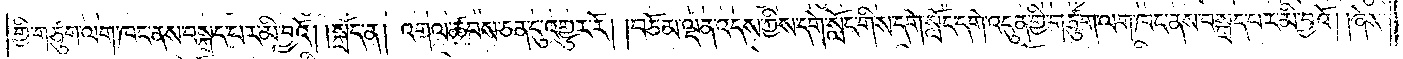གྱི་གཙུག་ལག་ཁང་ནས་བསྐྲད་པར་མི་བྱའོ། །སྐྲོད་ན། འགལ་ཚབས་ཅན་དུ་འགྱུར་རོ། །བཅོམ་ལྡན་འདས་ཀྱིས་དགེ་སློང་གིས་དགེ་སློང་དགེ་འདུན་གྱི་གཙུག་ལག་ཁང་ནས་བསྐྲད་པར་མི་བྱའོ། །ཞེས་
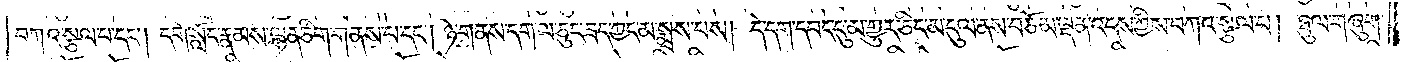བཀའ་སྩལ་པ་དང༌། དགེ་སློང་རྣམས་ལྷན་ཅིག་གནས་པ་དང༌། ཉེ་གནས་དག་ལ་ཅུང་ཟད་ཀྱང་མ་སྨྲས་པས། དེ་དག་དབང་དུ་མ་གྱུར་ཅིང་མ་དུལ་ནས་བཅོམ་ལྡན་འདས་ཀྱིས་བཀའ་སྩལ་པ། ཉུལ་གཞུག་
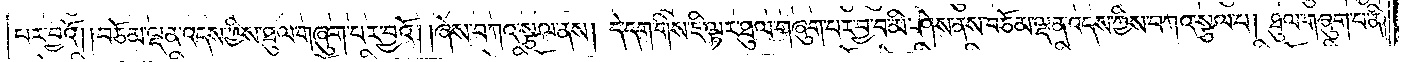པར་བྱའོ། །བཅོམ་ལྡན་འདས་ཀྱིས་ཐུལ་གཞུག་པར་བྱའོ། །ཞེས་བཀའ་སྩལ་ནས། དེ་དག་གིས་ཇི་ལྟར་ཐུལ་གཞུག་པར་བྱ་བ་མི་ཤེས་ནས་བཅོམ་ལྡན་འདས་ཀྱིས་བཀའ་སྩལ་པ། ཐུལ་གཞུག་པ་ནི།
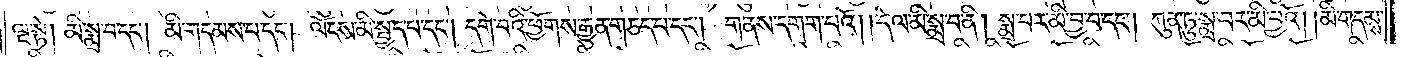ལྔ་སྟེ། མི་སྨྲ་བ་དང༌། མི་གདམས་པ་དང༌། ལོངས་མི་སྤྱད་པ་དང༌། དགེ་བའི་ཕྱོགས་རྒྱུན་གཅད་པ་དང༌། གནས་དགག་པའོ། །དེ་ལ་མི་སྨྲ་བ་ནི། སྨྲ་པར་མི་བྱ་བ་དང༌། ཀུན་ཏུ་སྨྲ་བར་མི་བྱའོ། །མི་གདམས་
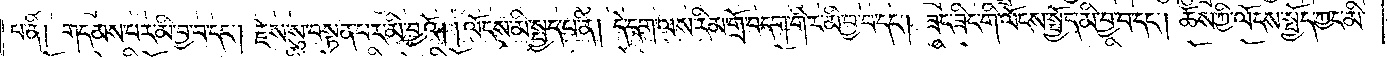པ་ནི། གདམས་པར་མི་བྱ་བ་དང༌། རྗེས་སུ་བསྟན་པར་མི་བྱའོ། །ལོངས་མི་སྤྱད་པ་ནི། དེ་དག་ལས་རིམ་གྲོ་བདག་གིར་མི་བྱ་བ་དང༌། ཟང་ཟིང་གི་ལོངས་སྤྱོད་མི་བྱ་བ་དང༌། ཆོས་ཀྱི་ལོངས་སྤྱོད་ཀྱང་མི་
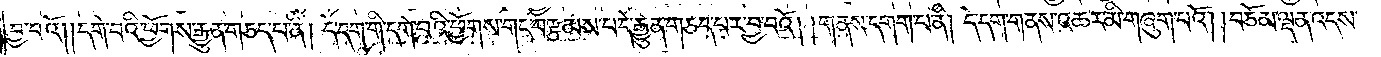བྱ་བའོ། །དགེ་བའི་ཕྱོགས་རྒྱུན་གཅད་པ་ནི། དེ་དག་གི་དགེ་བའི་ཕྱོགས་གང་བརྩམས་པ་དེ་རྒྱུན་གཅད་པར་བྱ་བའོ། །གནས་དགག་པ་ནི། དེ་དག་གནས་འཆར་མི་གཞུག་པའོ། །བཅོམ་ལྡན་འདས་
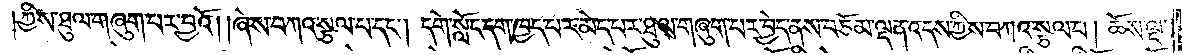ཀྱིས་ཐུལ་གཞུག་པར་བྱའོ། །ཞེས་བཀའ་སྩལ་པ་དང༌། དགེ་སློང་དག་ཁྱད་པར་མེད་པར་ཐུལ་གཞུག་པར་བྱེད་ནས་བཅོམ་ལྡན་འདས་ཀྱིས་བཀའ་སྩལ་པ། ཆོས་ལྔ་
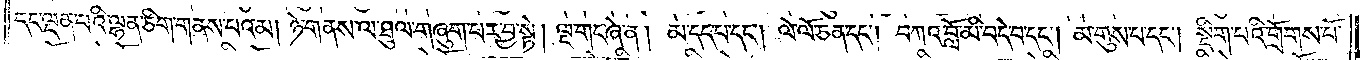དང་ལྡན་པའི་ལྷན་ཅིག་གནས་པའམ། ཉེ་གནས་ལ་ཐུལ་གཞུག་པར་བྱ་སྟེ། ལྔ་གང་ཞེ་ན། མ་དད་པ་དང༌། ལེ་ལོ་ཅན་དང༌། བཀའ་བློ་མི་བདེ་བ་དང༌། མ་གུས་པ་དང༌། སྡིག་པའི་གྲོགས་པོ་
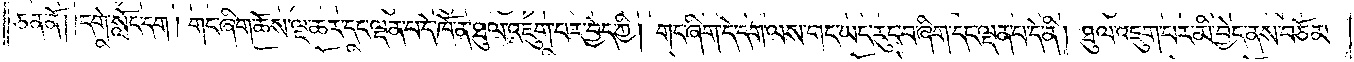ཅན་ནོ། །དགེ་སློང་དག །གང་ཞིག་ཆོས་ལྔ་ཆར་དང་ལྡན་པ་ད་ཁོ་ན་ཐུལ་འཇུག་པར་བྱེད་ཀྱི། གང་ཞིག་དེ་དག་ལས་གང་ཡང་རུང་བ་ཞིག་དང་ལྡན་པ་དེ་ནི། ཐུལ་འཇུག་པར་མི་བྱེད་ནས་བཅོམ་
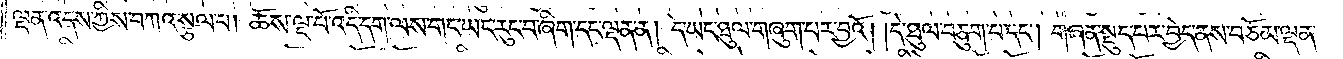ལྡན་འདས་ཀྱིས་བཀའ་སྩལ་པ། ཆོས་ལྔ་པོ་འདི་དག་ལས་གང་ཡང་རུང་བ་ཞིག་དང་ལྡན་ན། དེ་ཡང་ཐུལ་གཞུག་པར་བྱའོ། །དེ་ཐུལ་བཅུག་པ་དང༌། གཞན་སྡུད་པར་བྱེད་ནས་བཅོམ་ལྡན་
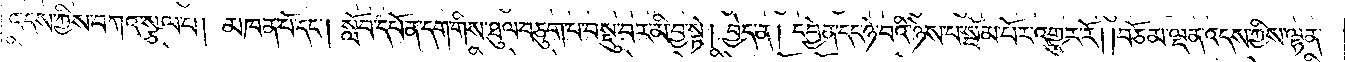འདས་ཀྱིས་བཀའ་སྩལ་པ། མཁན་པོ་དང༌། སློབ་དཔོན་དག་གིས་ཐུལ་བཅུག་པ་བསྡུ་བར་མི་བྱ་སྟེ། བྱེད་ན། དབྱེན་དང་ཉེ་བའི་ཉེས་པ་སྦོམ་པོར་འགྱུར་རོ། །བཅོམ་ལྡན་འདས་ཀྱིས་ལྷན་
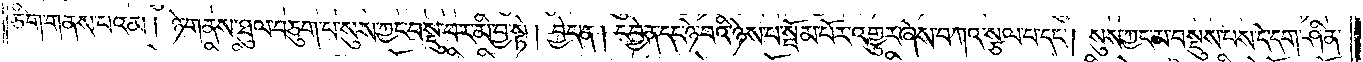ཅིག་གནས་པའམ། ཉེ་གནས་ཐུལ་བཅུག་པ་སུས་ཀྱང་བསྡུ་བར་མི་བྱ་སྟེ། བྱེད་ན། དབྱེན་དང་ཉེ་བའི་ཉེས་པ་སྦོམ་པོར་འགྱུར་ཞེས་བཀའ་སྩལ་པ་དང༌། སུས་ཀྱང་མ་བསྡུས་པས་དེ་དག་ཤིན་
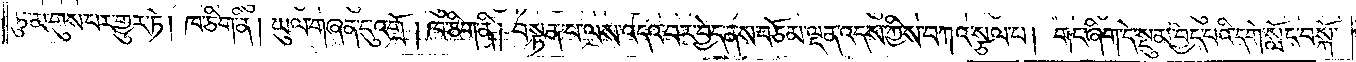ཏུ་མ་གུས་པར་གྱུར་ཏེ། ཁ་ཅིག་ནི། ཡུལ་གཞན་དུ་འགྲོ། ཁ་ཅིག་ནི། བསྟན་པ་ལས་འདའ་བར་བྱེད་ནས་བཅོམ་ལྡན་འདས་ཀྱིས་བཀའ་སྩལ་པ། གང་ཞིག་དེ་སྡུམ་བྱེད་པའི་དགེ་སློང་བསྐོ་
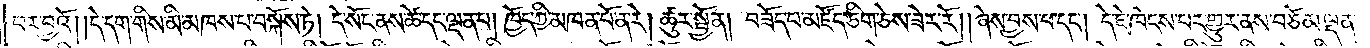བར་བྱའོ། །དེ་དག་གིས་མི་མཁས་པ་བསྐོས་ཏེ། དེ་སོང་ནས་ཚེ་དང་ལྡན་པ། ཁྱོད་ཀྱི་མཁན་པོ་ན་རེ། ཚུར་སྤྱོན། བཟོད་པ་མཛོད་ཅིག་ཅེས་ཟེར་རོ། །ཞེས་བྱས་པ་དང༌། དེ་ཇེ་ཁེངས་པར་གྱུར་ནས་བཅོམ་ལྡན་
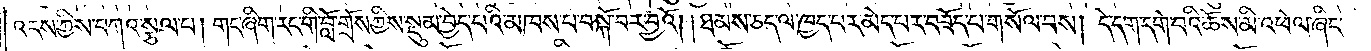འདས་ཀྱིས་བཀའ་སྩལ་པ། གང་ཞིག་རང་གི་བློ་གྲོས་ཀྱིས་སྡུམ་བྱེད་པའི་མཁས་པ་བསྐོ་བར་བྱའོ། །ཐམས་ཅད་ལ་ཁྱད་པར་མེད་པར་བཟོད་པ་གསོལ་བས། དེ་དག་དགེ་བའི་ཆོས་མི་འཕེལ་ཞིང་
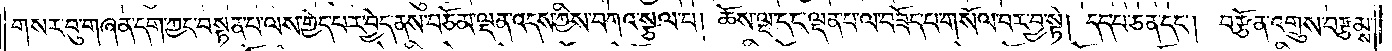གསར་བུ་གཞན་དག་ཀྱང་བསྟན་པ་ལས་གྱེད་པར་བྱེད་ནས་བཅོམ་ལྡན་འདས་ཀྱིས་བཀའ་སྩལ་པ། ཆོས་ལྔ་དང་ལྡན་པ་ལ་བཟོད་པ་གསོལ་བར་བྱ་སྟེ། དད་པ་ཅན་དང༌། བརྩོན་འགྲུས་བརྩམས་
